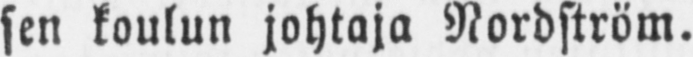sen koulun johtaja Nordström.
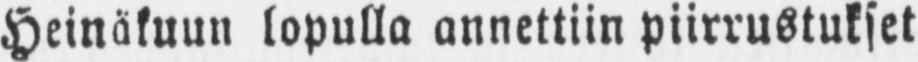Heinäkuun lopulla annettiin piirrustukset
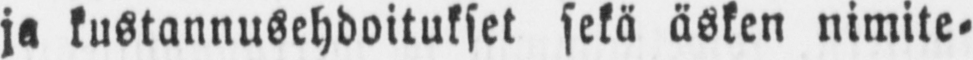ja kustannusehdoitukset sekä äsken nimite-
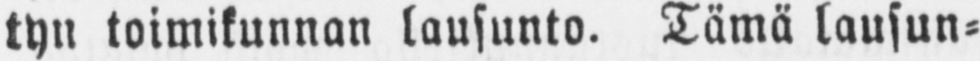tyn toimikunnan lausunto. Tämä lausun-
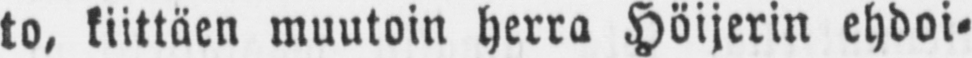to, kiittäen muutoin herra Höijerin ehdoi-
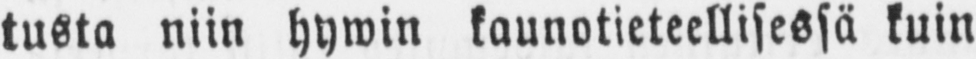tusta niin hywin kaunotieteellisessä kuin
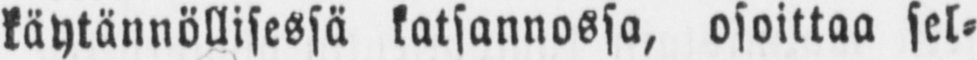käytännöllisessä katsannossa, osoittaa sel-
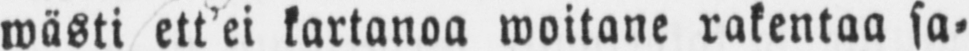wästi ett´ei kartanoa woitane rakentaa sa-
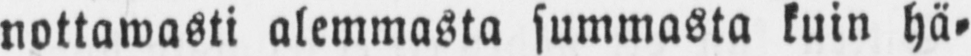nottawasti alemmasta summasta kuin hä-
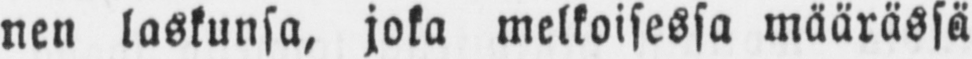nen laskunsa, joka melkoisessa määrässä
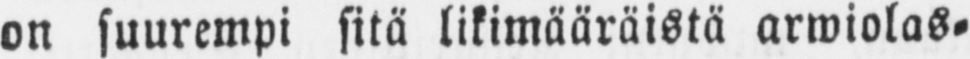on suurempi sitä likimääräistä arwiolas-
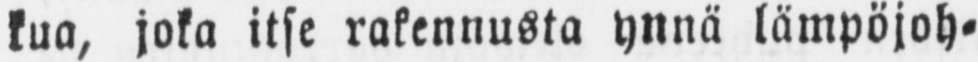kua, joka itse rakennusta ynnä lämpöjoh-
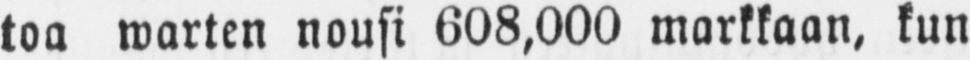toa warten nousi 608,000 markkaan, kun
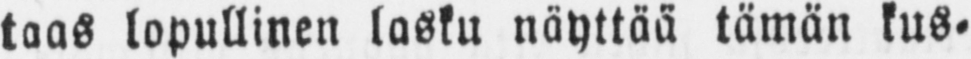taas lopullinen lasku näyttää tämän kus-
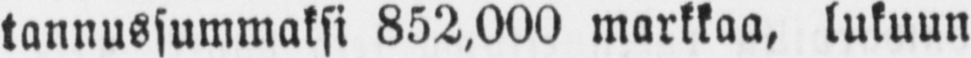tannussummaksi 852,000 markkaa, lukuun
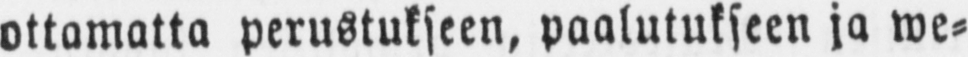ottamatta perustukseen, paalutukseen ja we-
